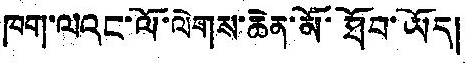ཁག་ལའང་ལོ་ལེགས་ཆེན་མོ་ཐོབ་ཡོད།
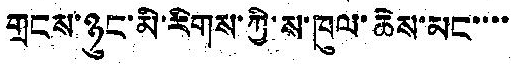གྲངས་ཉུང་མི་རིགས་ཀྱི་ས་ཁུལ་ཆེས་མང་་་་
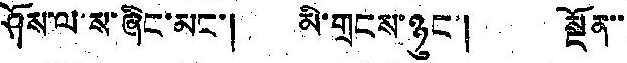ཤོས་ལ་ས་ཞིང་མང་། མི་གྲངས་ཉུང་། སྔོན་་
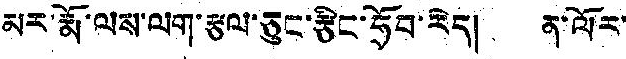མར་རྨོ་ལས་ལག་རྩལ་ཅུང་རྩིང་ཧྲོབ་རེད། ན་ལོར་
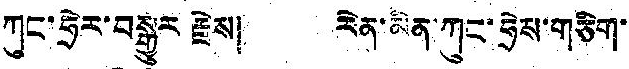ཀུང་ཧྲེར་བསྒྱུར་རྗེས། རེན་མིན་ཀུང་ཧྲེས་གཅིག་
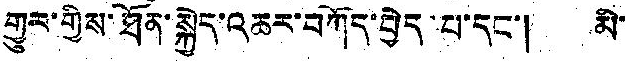གྱུར་གྱིས་ཐོན་སྐྱེད་འཆར་བཀོད་བྱེད་པ་དང་། མི་
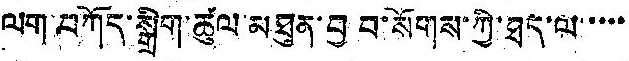ལག་བཀོད་སྒྲིག་ཚུལ་མཐུན་བྱ བ་སོགས་ཀྱི་ཐད་ལ་་་་་
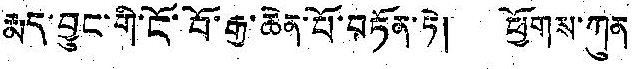རྨད་བྱུང་གི་ངོ་བོ་རྒྱ་ཆེན་པོ་བཏོན་ཏེ། ཕྱོགས་ཀུན
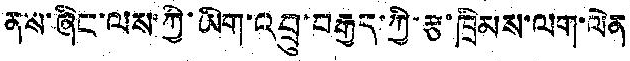ནས་ཞིང་ལས་ཀྱི་ཡིག་འབྲུ་བརྒྱད་ཀྱི་རྩ་ཁྲིམས་ལག་ལེན
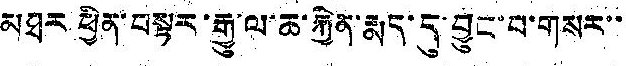མཐར ཕྱིན་བསྟར་རྒྱུ་ལ་ཆ་རྐྱེན་རྨད་དུ་བྱུང་བ་གསར་་
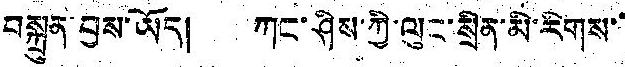བསྐྲུན་བྱས་ཡོད། ཀང་ཤིས་ཀྱི་ལུང་སྲིན་མི་རིགས་་
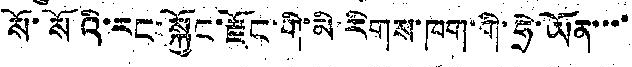སོ་སོའི་རང་སྐྱོང་རྫོང་གི་མི་རིགས་ཁག་གི་ཧྲེ་ཡོན་་་་
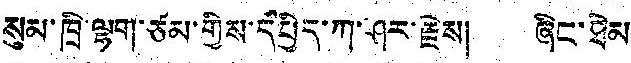སུམ་ཁྲི་ལྷག་ཙམ་གྱིས་དཔྱིད་ཀ་ཤར་རྗེས། ཞིང་ཐེམ
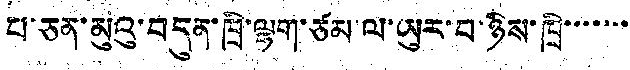པ་ཅན་མུའུ་བདུན་ཁྲི་ལྷག་ཙམ་ལ་ཡུར་བ་ཉིས་ཁྲི་་་་་་་
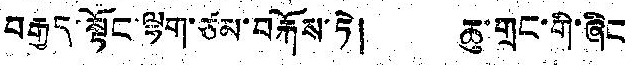བརྒྱད་སྟོང་ལྷག་ཙམ་བརྐོས་ཏེ། ཆུ་གྲང་གི་ཞིང
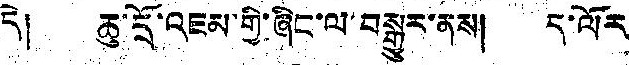དེ། ཆུ་དྲོ་འཇམ་གྱི་ཞིང་ལ་བསྒྱུར་ནས། ད་ལོར
